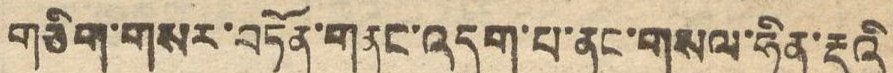གཅིག་གསར་བཏོན་གནང་འདུག་པ་ནང་གསལ་ཧིན་རྡུའི
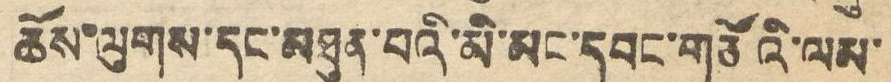ཆོས་ལུགས་དང་མཐུན་པའི་མི་མང་དབང་གཙོའི་ལམ་
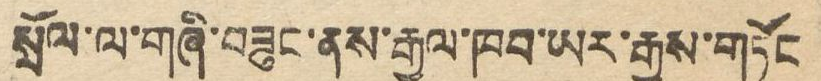སྲོལ་ལ་གཞི་བཟུང་ནས་རྒྱལ་ཁབ་ཡར་རྒྱས་གཏོང
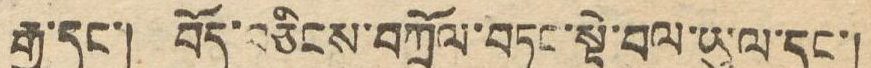རྒྱུ་དང་། བོད་བཅིངས་བཀྲོལ་བཏང་སྟེ་བལ་ཡུལ་དང་།
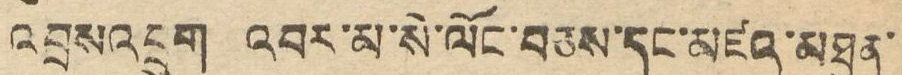འབྲསའབྲུག འབར་མ་སི་ལོང་བཅས་དང་མཛའ་མཐུན་
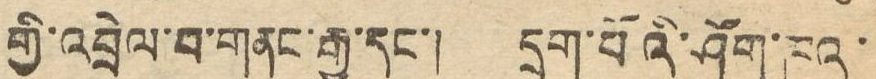གྱི་འབྲེལ་བ་གནང་རྒྱུ་དང་། དྲག་པོའི་ཤོག་ཁའི་
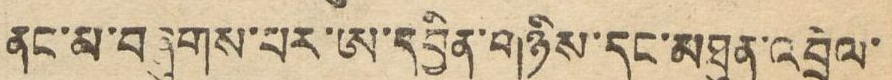ནང་མ་བཞུགས་པར་ཨ་དབྱིན་གཉིས་དང་མཐུན་འབྲེལ་
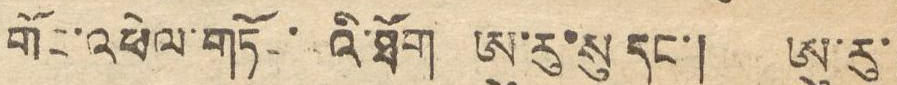གོང་འཕེལ་གཏོང་པའི་ཐོག ཨུ་རུ་སུ དང་། ཨུ་རུ་
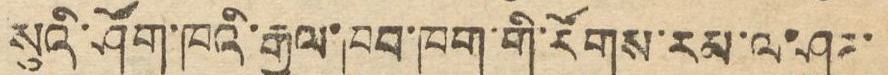སུའི་ཤོག་ཁའི་རྒྱལ་ཁབ་ཁག་གི་རོགས་རམ་ལ་ཤུཊ་
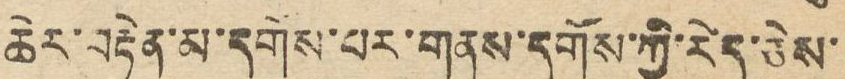ཆེར་བརྟེན་མ་དགོས་པར་གནས་དགོས་ཀྱི་རེད་ཅེས་
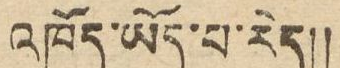འཁོད་ཡོད་པ་རེད།།
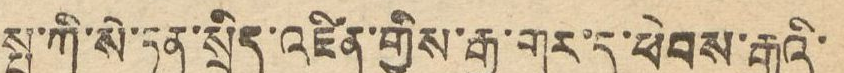སྤ་ཀི་སི་ཏན་སྲིད་འཛིན་གྱིས་རྒྱ་གར་དུ་ཕེབས་རྒྱུའི་
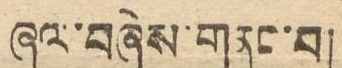ཞལ་བཞེས་གནང་བ།
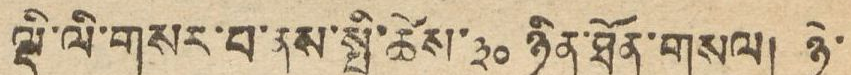ལྡི་ལི་གསར་བ་ནས་སྤྱི་ཚེས་ ༣༠ ཉིན་ཐོན་གསལ། ཉེ་
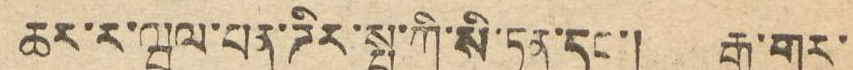ཆར་ར་ཝལ་པན་ཌིར་སྤ་ཀི་སི་ཏན་དང་། རྒྱ་གར་
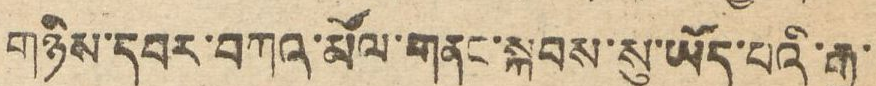གཉིས་དབར་བཀའ་མོལ་གནང་སྐབས་ཡོད་པའི་རྒྱ་
